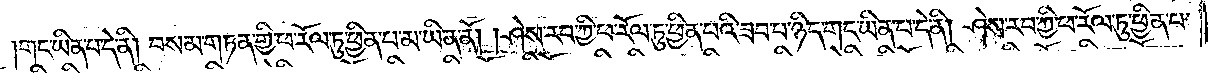གང་ཡིན་པ་དེ་ནི། བསམ་གཏན་གྱི་ཕ་རོལ་ཏུ་ཕྱིན་པ་མ་ཡིན་ནོ། །ཤེས་རབ་ཀྱི་ཕ་རོལ་ཏུ་ཕྱིན་པའི་ཟབ་པ་ཉིད་གང་ཡིན་པ་དེ་ནི། ཤེས་རབ་ཀྱི་ཕ་རོལ་ཏུ་ཕྱིན་པ་
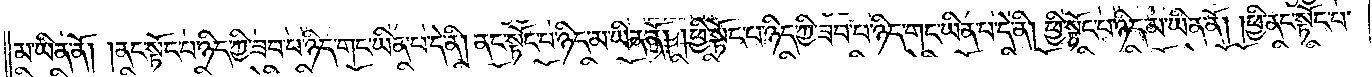མ་ཡིན་ནོ། །ནང་སྟོང་པ་ཉིད་ཀྱི་ཟབ་པ་ཉིད་གང་ཡིན་པ་དེ་ནི། ནང་སྟོང་པ་ཉིད་མ་ཡིན་ནོ། །ཕྱི་སྟོང་པ་ཉིད་ཀྱི་ཟབ་པ་ཉིད་གང་ཡིན་པ་དེ་ནི། ཕྱི་སྟོང་པ་ཉིད་མ་ཡིན་ནོ། །ཕྱི་ནང་སྟོང་པ་
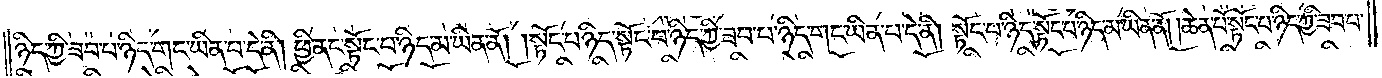ཉིད་ཀྱི་ཟབ་པ་ཉིད་གང་ཡིན་པ་དེ་ནི། ཕྱི་ནང་སྟོང་པ་ཉིད་མ་ཡིན་ནོ། །སྟོང་པ་ཉིད་སྟོང་པ་ཉིད་ཀྱི་ཟབ་པ་ཉིད་གང་ཡིན་པ་དེ་ནི། སྟོང་པ་ཉིད་སྟོང་པ་ཉིད་མ་ཡིན་ནོ། །ཆེན་པོ་སྟོང་པ་ཉིད་ཀྱི་ཟབ་པ་
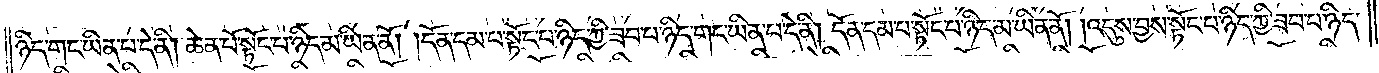ཉིད་གང་ཡིན་པ་དེ་ནི། ཆེན་པོ་སྟོང་པ་ཉིད་མ་ཡིན་ནོ། །དོན་དམ་པ་སྟོང་པ་ཉིད་ཀྱི་ཟབ་པ་ཉིད་གང་ཡིན་པ་དེ་ནི། དོན་དམ་པ་སྟོང་པ་ཉིད་མ་ཡིན་ནོ། །འདུས་བྱས་སྟོང་པ་ཉིད་ཀྱི་ཟབ་པ་ཉིད་
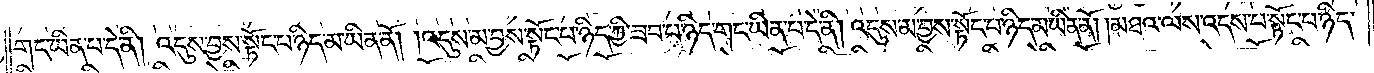གང་ཡིན་པ་དེ་ནི། འདུས་བྱས་སྟོང་པ་ཉིད་མ་ཡིན་ནོ། །འདུས་མ་བྱས་སྟོང་པ་ཉིད་ཀྱི་ཟབ་པ་ཉིད་གང་ཡིན་པ་དེ་ནི། འདུས་མ་བྱས་སྟོང་པ་ཉིད་མ་ཡིན་ནོ། །མཐའ་ལས་འདས་པ་སྟོང་པ་ཉིད་
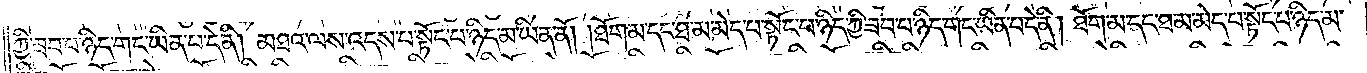ཀྱི་ཟབ་པ་ཉིད་གང་ཡིན་པ་དེ་ནི། མཐའ་ལས་འདས་པ་སྟོང་པ་ཉིད་མ་ཡིན་ནོ། །ཐོག་མ་དང་ཐ་མ་མེད་པ་སྟོང་པ་ཉིད་ཀྱི་ཟབ་པ་ཉིད་གང་ཡིན་པ་དེ་ནི། ཐོག་མ་དང་ཐ་མ་མེད་པ་སྟོང་པ་ཉིད་མ་
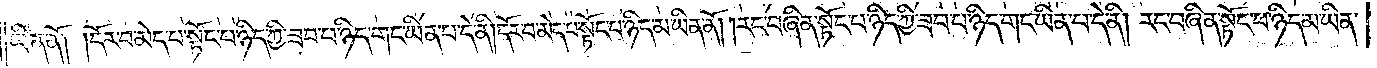ཡིན་ནོ། །དོར་བ་མེད་པ་སྟོང་པ་ཉིད་ཀྱི་ཟབ་པ་ཉིད་གང་ཡིན་པ་དེ་ནི། དོར་བ་མེད་པ་སྟོང་པ་ཉིད་མ་ཡིན་ནོ། །རང་བཞིན་སྟོང་པ་ཉིད་ཀྱི་ཟབ་པ་ཉིད་གང་ཡིན་པ་དེ་ནི། རང་བཞིན་སྟོང་པ་ཉིད་མ་ཡིན་
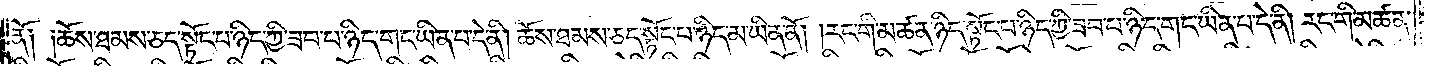ནོ༑ ༑ཆོས་ཐམས་ཅད་སྟོང་པ་ཉིད་ཀྱི་ཟབ་པ་ཉིད་གང་ཡིན་པ་དེ་ནི། ཆོས་ཐམས་ཅད་སྟོང་པ་ཉིད་མ་ཡིན་ནོ། །རང་གི་མཚན་ཉིད་སྟོང་པ་ཉིད་ཀྱི་ཟབ་པ་ཉིད་གང་ཡིན་པ་དེ་ནི། རང་གི་མཚན་
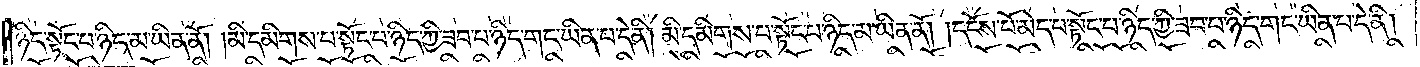ཉིད་སྟོང་པ་ཉིད་མ་ཡིན་ནོ། །མི་དམིགས་པ་སྟོང་པ་ཉིད་ཀྱི་ཟབ་པ་ཉིད་གང་ཡིན་པ་དེ་ནི། མི་དམིགས་པ་སྟོང་པ་ཉིད་མ་ཡིན་ནོ། །དངོས་པོ་མེད་པ་སྟོང་པ་ཉིད་ཀྱི་ཟབ་པ་ཉིད་གང་ཡིན་པ་དེ་ནི།
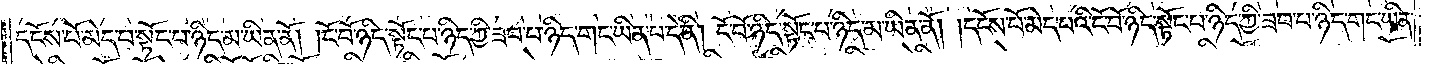དངོས་པོ་མེད་པ་སྟོང་པ་ཉིད་མ་ཡིན་ནོ། །ངོ་བོ་ཉིད་སྟོང་པ་ཉིད་ཀྱི་ཟབ་པ་ཉིད་གང་ཡིན་པ་དེ་ནི། ངོ་བོ་ཉིད་སྟོང་པ་ཉིད་མ་ཡིན་ནོ། །དངོས་པོ་མེད་པའི་ངོ་བོ་ཉིད་སྟོང་པ་ཉིད་ཀྱི་ཟབ་པ་ཉིད་གང་ཡིན་
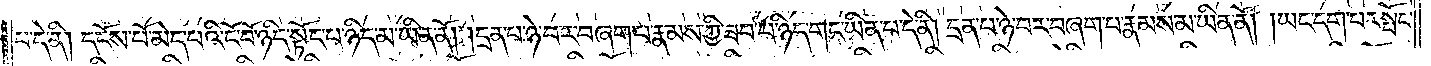པ་དེ་ནི། དངོས་པོ་མེད་པའི་ངོ་བོ་ཉིད་སྟོང་པ་ཉིད་མ་ཡིན་ནོ། །དྲན་པ་ཉེ་བར་བཞག་པ་རྣམས་ཀྱི་ཟབ་པ་ཉིད་གང་ཡིན་པ་དེ་ནི། དྲན་པ་ཉེ་བར་བཞག་པ་རྣམས་མ་ཡིན་ནོ། །ཡང་དག་པར་སྤོང་
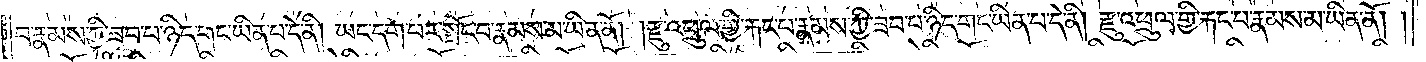བ་རྣམས་ཀྱི་ཟབ་པ་ཉིད་གང་ཡིན་པ་དེ་ནི། ཡང་དག་པར་སྤོང་བ་རྣམས་མ་ཡིན་ནོ། །རྫུ་འཕྲུལ་གྱི་རྐང་པ་རྣམས་ཀྱི་ཟབ་པ་ཉིད་གང་ཡིན་པ་དེ་ནི། རྫུ་འཕྲུལ་གྱི་རྐང་པ་རྣམས་མ་ཡིན་ནོ། །
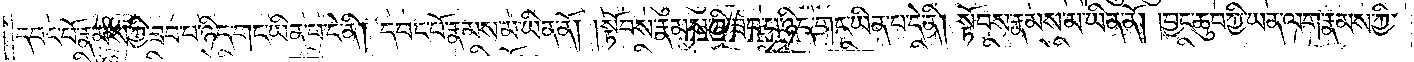དབང་པོ་རྣམས་ཀྱི་ཟབ་པ་ཉིད་གང་ཡིན་པ་དེ་ནི། དབང་པོ་རྣམས་མ་ཡིན་ནོ། །སྟོབས་རྣམས་ཀྱི་ཟབ་པ་ཉིད་གང་ཡིན་པ་དེ་ནི། སྟོབས་རྣམས་མ་ཡིན་ནོ། །བྱང་ཆུབ་ཀྱི་ཡན་ལག་རྣམས་ཀྱི་
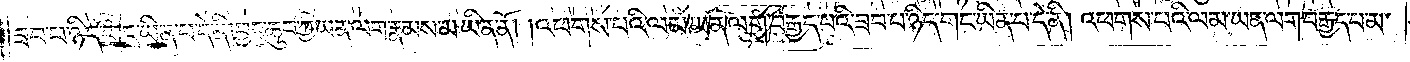ཟབ་པ་ཉིད་གང་ཡིན་པ་དེ་ནི། བྱང་ཆུབ་ཀྱི་ཡན་ལག་རྣམས་མ་ཡིན་ནོ། །འཕགས་པའི་ལམ་ཡན་ལག་བརྒྱད་པའི་ཟབ་པ་ཉིད་གང་ཡིན་པ་དེ་ནི། འཕགས་པའི་ལམ་ཡན་ལག་བརྒྱད་པ་མ་
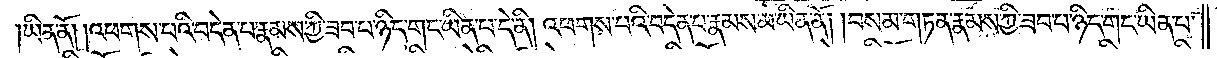ཡིན་ནོ། །འཕགས་པའི་བདེན་པ་རྣམས་ཀྱི་ཟབ་པ་ཉིད་གང་ཡིན་པ་དེ་ནི། འཕགས་པའི་བདེན་པ་རྣམས་མ་ཡིན་ནོ། །བསམ་གཏན་རྣམས་ཀྱི་ཟབ་པ་ཉིད་གང་ཡིན་པ་
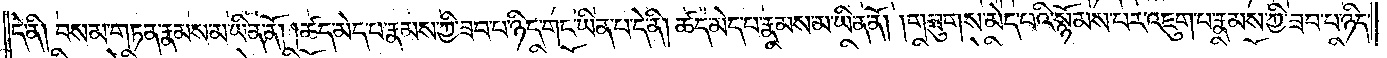དེ་ནི། བསམ་གཏན་རྣམས་མ་ཡིན་ནོ། །ཚད་མེད་པ་རྣམས་ཀྱི་ཟབ་པ་ཉིད་གང་ཡིན་པ་དེ་ནི། ཚད་མེད་པ་རྣམས་མ་ཡིན་ནོ། །གཟུགས་མེད་པའི་སྙོམས་པར་འཇུག་པ་རྣམས་ཀྱི་ཟབ་པ་ཉིད་
